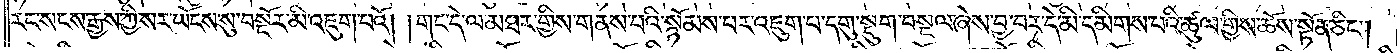རང་སངས་རྒྱས་ཀྱི་སར་ཡོངས་སུ་བསྔོར་མི་འཇུག་པའོ། །གང་དེ་ལ་མཐར་གྱིས་གནས་པའི་སྙོམས་པར་འཇུག་པ་དགུ་སྡུག་བསྔལ་ཞེས་བྱ་བར་དེ་མི་དམིགས་པའི་ཚུལ་གྱིས་ཆོས་སྟོན་ཅིང༌།
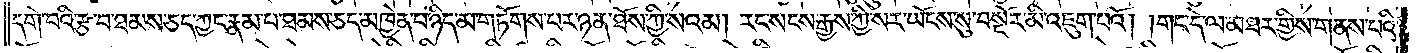དགེ་བའི་རྩ་བ་ཐམས་ཅད་ཀྱང་རྣམ་པ་ཐམས་ཅད་མཁྱེན་པ་ཉིད་མ་གཏོགས་པར་ཉན་ཐོས་ཀྱི་སའམ། རང་སངས་རྒྱས་ཀྱི་སར་ཡོངས་སུ་བསྔོར་མི་འཇུག་པའོ། །གང་དེ་ལ་མཐར་གྱིས་གནས་པའི་
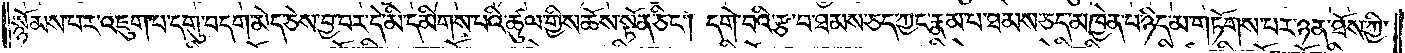སྙོམས་པར་འཇུག་པ་དགུ་བདག་མེད་ཅེས་བྱ་བར་དེ་མི་དམིགས་པའི་ཚུལ་གྱིས་ཆོས་སྟོན་ཅིང༌། དགེ་བའི་རྩ་བ་ཐམས་ཅད་ཀྱང་རྣམ་པ་ཐམས་ཅད་མཁྱེན་པ་ཉིད་མ་གཏོགས་པར་ཉན་ཐོས་ཀྱི་
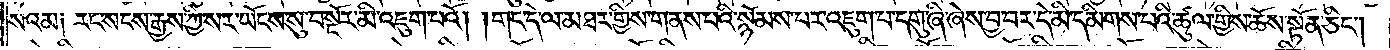སའམ༑ རང་སངས་རྒྱས་ཀྱི་སར་ཡོངས་སུ་བསྔོར་མི་འཇུག་པའོ། །གང་དེ་ལ་མཐར་གྱིས་གནས་པའི་སྙོམས་པར་འཇུག་པ་དགུ་ཞི་ཞེས་བྱ་བར་དེ་མི་དམིགས་པའི་ཚུལ་གྱིས་ཆོས་སྟོན་ཅིང༌།
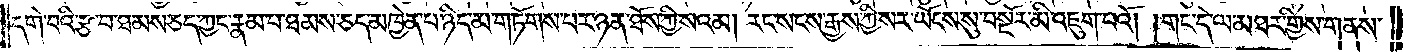དགེ་བའི་རྩ་བ་ཐམས་ཅད་ཀྱང་རྣམ་པ་ཐམས་ཅད་མཁྱེན་པ་ཉིད་མ་གཏོགས་པར་ཉན་ཐོས་ཀྱི་སའམ། རང་སངས་རྒྱས་ཀྱི་སར་ཡོངས་སུ་བསྔོར་མི་འཇུག་པའོ། །གང་དེ་ལ་མཐར་གྱིས་གནས་
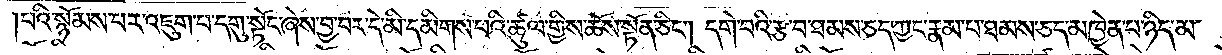པའི་སྙོམས་པར་འཇུག་པ་དགུ་སྟོང་ཞེས་བྱ་བར་དེ་མི་དམིགས་པའི་ཚུལ་གྱིས་ཆོས་སྟོན་ཅིང༌། དགེ་བའི་རྩ་བ་ཐམས་ཅད་ཀྱང་རྣམ་པ་ཐམས་ཅད་མཁྱེན་པ་ཉིད་མ་
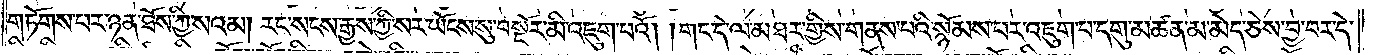གཏོགས་པར་ཉན་ཐོས་ཀྱི་སའམ། རང་སངས་རྒྱས་ཀྱི་སར་ཡོངས་སུ་བསྔོར་མི་འཇུག་པའོ། །གང་དེ་ལ་མཐར་གྱིས་གནས་པའི་སྙོམས་པར་འཇུག་པ་དགུ་མཚན་མ་མེད་ཅེས་བྱ་བར་དེ་
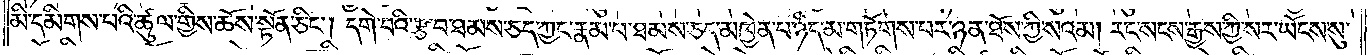མི་དམིགས་པའི་ཚུལ་གྱིས་ཆོས་སྟོན་ཅིང༌། དགེ་བའི་རྩ་བ་ཐམས་ཅད་ཀྱང་རྣམ་པ་ཐམས་ཅད་མཁྱེན་པ་ཉིད་མ་གཏོགས་པར་ཉན་ཐོས་ཀྱི་སའམ། རང་སངས་རྒྱས་ཀྱི་སར་ཡོངས་སུ་
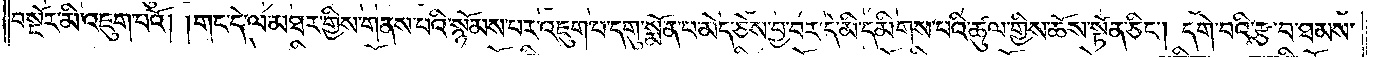བསྔོར་མི་འཇུག་པའོ། །གང་དེ་ལ་མཐར་གྱིས་གནས་པའི་སྙོམས་པར་འཇུག་པ་དགུ་སྨོན་པ་མེད་ཅེས་བྱ་བར་དེ་མི་དམིགས་པའི་ཚུལ་གྱིས་ཆོས་སྟོན་ཅིང༌། དགེ་བའི་རྩ་བ་ཐམས་
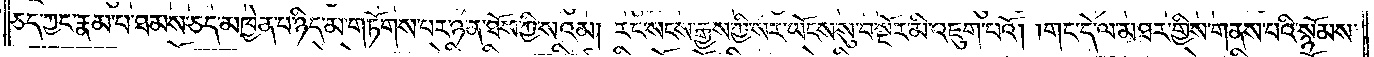ཅད་ཀྱང་རྣམ་པ་ཐམས་ཅད་མཁྱེན་པ་ཉིད་མ་གཏོགས་པར་ཉན་ཐོས་ཀྱི་སའམ། རང་སངས་རྒྱས་ཀྱི་སར་ཡོངས་སུ་བསྔོར་མི་འཇུག་པའོ། །གང་དེ་ལ་མཐར་གྱིས་གནས་པའི་སྙོམས་
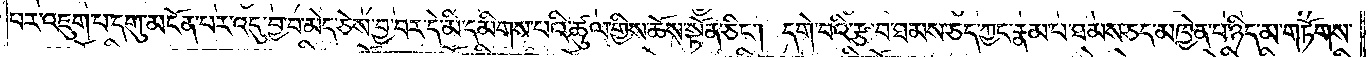པར་འཇུག་པ་དགུ་མངོན་པར་འདུ་བྱ་བ་མེད་ཅེས་བྱ་བར་དེ་མི་དམིགས་པའི་ཚུལ་གྱིས་ཆོས་སྟོན་ཅིང༌། དགེ་བའི་རྩ་བ་ཐམས་ཅད་ཀྱང་རྣམ་པ་ཐམས་ཅད་མཁྱེན་པ་ཉིད་མ་གཏོགས་
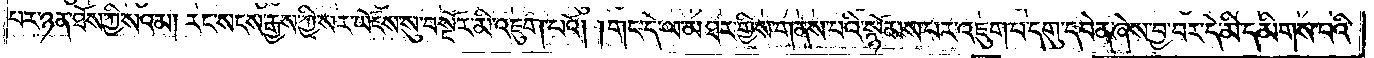པར་ཉན་ཐོས་ཀྱི་སའམ། རང་སངས་རྒྱས་ཀྱི་སར་ཡོངས་སུ་བསྔོར་མི་འཇུག་པའོ། །གང་དེ་ལ་མཐར་གྱིས་གནས་པའི་སྙོམས་པར་འཇུག་པ་དགུ་དབེན་ཞེས་བྱ་བར་དེ་མི་དམིགས་པའི་
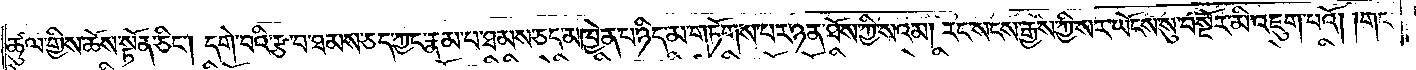ཚུལ་གྱིས་ཆོས་སྟོན་ཅིང༌། དགེ་བའི་རྩ་བ་ཐམས་ཅད་ཀྱང་རྣམ་པ་ཐམས་ཅད་མཁྱེན་པ་ཉིད་མ་གཏོགས་པར་ཉན་ཐོས་ཀྱི་སའམ། རང་སངས་རྒྱས་ཀྱི་སར་ཡོངས་སུ་བསྔོར་མི་འཇུག་པའོ། །གང་
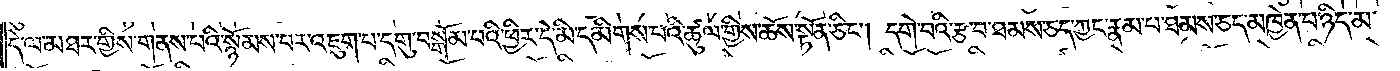དེ་ལ་མཐར་གྱིས་གནས་པའི་སྙོམས་པར་འཇུག་པ་དགུ་བསྒོམ་པའི་ཕྱིར་དེ་མི་དམིགས་པའི་ཚུལ་གྱིས་ཆོས་སྟོན་ཅིང༌། དགེ་བའི་རྩ་བ་ཐམས་ཅད་ཀྱང་རྣམ་པ་ཐམས་ཅད་མཁྱེན་པ་ཉིད་མ་
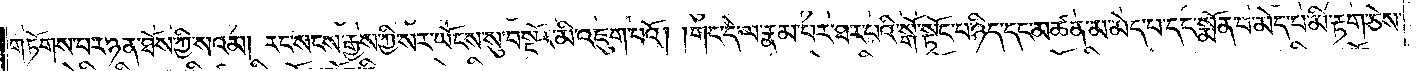གཏོགས་པར་ཉན་ཐོས་ཀྱི་སའམ། རང་སངས་རྒྱས་ཀྱི་སར་ཡོངས་སུ་བསྔོར་མི་འཇུག་པའོ། །གང་དེ་ལ་རྣམ་པར་ཐར་པའི་སྒོ་སྟོང་པ་ཉིད་དང་མཚན་མ་མེད་པ་དང་སྨོན་པ་མེད་པ་མི་རྟག་ཅེས་
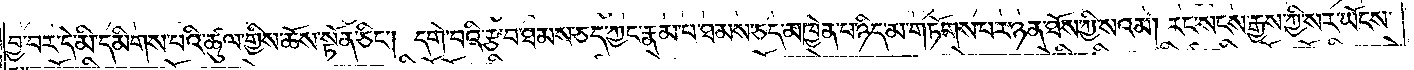བྱ་བར་དེ་མི་དམིགས་པའི་ཚུལ་གྱིས་ཆོས་སྟོན་ཅིང༌། དགེ་བའི་རྩ་བ་ཐམས་ཅད་ཀྱང་རྣམ་པ་ཐམས་ཅད་མཁྱེན་པ་ཉིད་མ་གཏོགས་པར་ཉན་ཐོས་ཀྱི་སའམ། རང་སངས་རྒྱས་ཀྱི་སར་ཡོངས་
